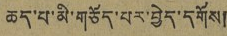ཆད་བ་མི་གཅོད་པར་བྱེད་དགོས།
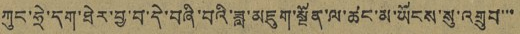ཀུང་ཧྲེ་དག་ཐེར་བྱ་བ་དེ་བཞི་བའི་ཟླ་མཇུག་སྔོན་ལ་ཚང་མ་ཡོངས་སུ་འགྲུབ་་་
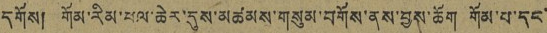དགོས། གོམ་རིམ་ཕལ་ཆེར་དུས་མཚམས་གསུམ་བགོས་ནས་བྱས་ཆོག གོམ་པ་དང་
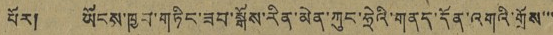པོར། ཡོངས་ཁྱབ་གཏིང་ཟབ་སྒོས་རིན་མེན་ཀུང་ཧྲེའི་གནད་དོན་འགའི་གྲོས་་་
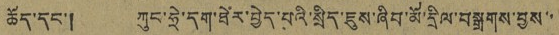ཆོད་དང་། ཀུང་ཧྲེ་དག་ཐེར་བྱེད་པའི་སྲིད་ཇུས་ཞིབ་མོ་དྲིལ་བསྒྲགས་བྱས་་
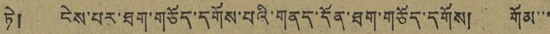ཏེ། ངེས་པར་ཐག་གཅོད་དགོས་པའི་གནད་དོན་ཐག་གཅོད་དགོས། གོམ་་་
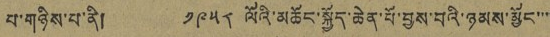པ་གཉིས་པ་ནི། ༡༩༥༨ ལོའི་མཆོང་སྐྱོད་ཆེན་པོ་བྱས་བའི་ཉམས་མྱོང་་་་
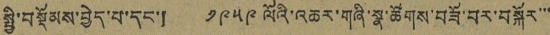སྤྱི་བསྡོམས་བྱེད་པ་དང་། ༡༩༥༩ ལོའི་འཆར་གཞི་སྣ་ཚོགས་བཟོ་བར་བསྐོར་་་
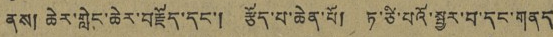ནས། ཆེར་གླེང་ཆེར་བརྗོད་དང་། རྩོད་པ་ཆེན་པོ། ཏ་ཙི་པའོ་སྦྱར་བ་དང་གནད་
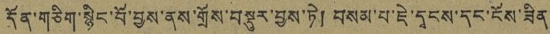དོན་གཅིག་སྙིང་པོ་བྱས་ནས་གྲོས་བསྡུར་བྱས་ཏེ། བསམ་པ་ཇེ་དྭངས་དང་ངོས་ཟིན་
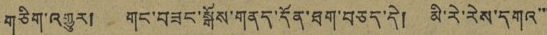གཅིག་འགྱུར། གང་བཟང་སྒོས་གནད་དོན་ཐག་བཅད་དེ། མི་རེ་རེས་དགའ་་་
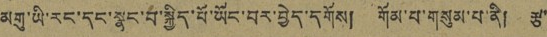མགུ་ཡི་རང་དང་སྣང་བ་སྐྱིད་པོ་ཡོང་བར་བྱེད་དགོས། གོམ་པ་གསུམ་པ་ནི། རྩ་
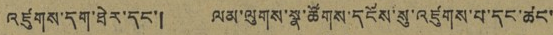འཛུགས་དག་ཐེར་དང་། ལམ་ལུགས་སྣ་ཚོགས་དངོས་སུ་འཛུགས་པ་དང་ཚང་
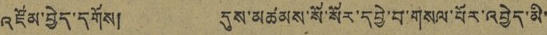འཛོམ་བྱེད་དགོས། དུས་མཚམས་སོ་སོར་དབྱེ་བ་གསལ་པོར་འབྱེད་མི་
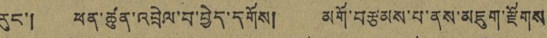རུང་། ཕན་ཚུན་འབྲེལ་བ་བྱེད་དགོས། མགོ་བརྩམས་པ་ནས་མཇུག་རྫོགས
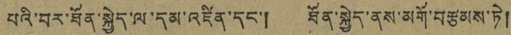པའི་བར་ཐོན་སྐྱེད་ལ་དམ་འཛིན་དང་། ཐོན་སྐྱེད་ནས་མགོ་བརྩམས་ཏེ།
